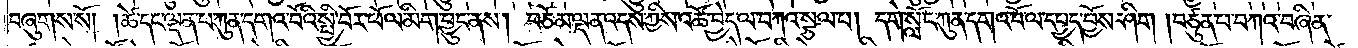བཞུགས་སོ། །ཚེ་དང་ལྡན་པ་ཀུན་དགའ་བོའི་སྤྱི་བོར་ཕོལ་མིག་བྱུང་ནས། བཅོམ་ལྡན་འདས་ཀྱིས་འཚོ་བྱེད་ལ་བཀའ་སྩལ་པ། དགེ་སློང་ཀུན་དགའ་བོ་ལ་དཔྱད་བྱོས་ཤིག །བཙུན་པ་བཀའ་བཞིན་
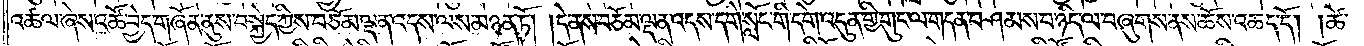འཚལ་ཞེས་འཚོ་བྱེད་གཞོན་ནུས་བསྐྱེད་ཀྱིས་བཅོམ་ལྡན་འདས་ལས་མཉན་ཏོ། །དེ་ནས་བཅོམ་ལྡན་འདས་དགེ་སློང་གི་དགེ་འདུན་གྱི་གུང་ལ་གདན་བཤམས་པ་ཉིད་ལ་བཞུགས་ནས་ཆོས་འཆད་དོ། །ཚེ་
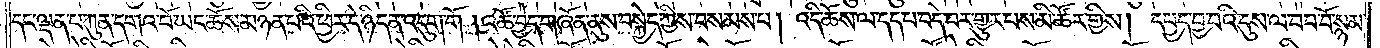དང་ལྡན་པ་ཀུན་དགའ་བོ་ཡང་ཆོས་མཉན་པའི་ཕྱིར་དེ་ཉིད་ན་འདུག་གོ །འཚོ་བྱེད་གཞོན་ནུས་བསྐྱེད་ཀྱིས་བསམས་པ། འདི་ཆོས་ལ་དད་པ་བདེ་བར་གྱུར་པས་མི་ཚོར་གྱིས། དཔྱད་བྱ་བའི་དུས་ལ་བབ་བོ་སྙམ་
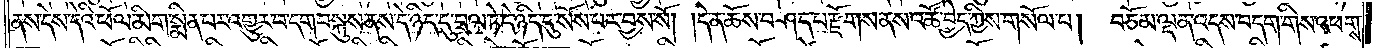ནས་དེས་དེའི་ཕོལ་མིག་སྨིན་པར་འགྱུར་བ་དག་བསྐུས་ནས་དེ་ཉིད་དུ་བྲལ་ཏེ་དེ་ཉིད་དུ་སོས་བར་བྱས་སོ། །དེ་ན་ཆོས་བཤད་པ་རྫོགས་ནས་འཚོ་བྱེད་ཀྱིས་གསོལ་པ། བཅོམ་ལྡན་འདས་བདག་གིས་འཕགས་
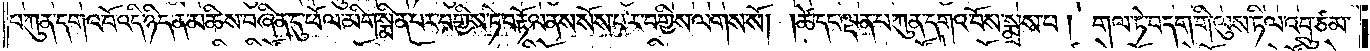པ་ཀུན་དགའ་བོ་འདི་ཉིད་ན་མཆིས་བཞིན་དུ་ཕོལ་མིག་སྨིན་པར་བགྱིས་ཏེ་བརྟོལ་ནས་སོས་པར་བགྱིས་ལགས་སོ། །ཚེ་དང་ལྡན་པ་ཀུན་དགའ་བོས་སྨྲས་པ། གལ་ཏེ་བདག་གི་ལུས་ཏིལ་འབྲུ་ཙམ་
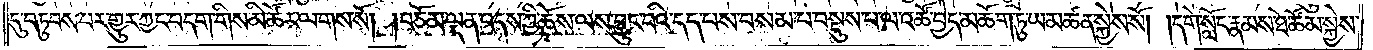དུ་བཏུབས་པར་གྱུར་ཀྱང་བདག་གིས་མི་ཚོར་ལགས་སོ། །བཅོམ་ལྡན་འདས་ཀྱི་ཆོས་ལས་བྱུང་བའི་དད་པས་བསམ་པ་བསྡུས་པ་ལ་འཚོ་བྱེད་མཆོག་ཏུ་ཡ་མཚན་སྐྱེས་སོ། །དགེ་སློང་རྣམས་ཐེ་ཚོམ་སྐྱེས་
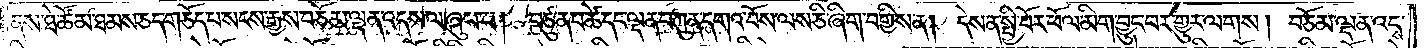ནས་ཐེ་ཚོམ་ཐམས་ཅད་གཅོད་པས་སངས་རྒྱས་བཅོམ་ལྡན་འདས་ལ་ཞུས་པ། བཙུན་པ་ཚེ་དང་ལྡན་པ་ཀུན་དགའ་བོས་ལས་ཅི་ཞིག་བགྱིས་ན། དེས་ན་སྤྱི་བོར་ཕོལ་མིག་བྱུང་བར་གྱུར་ལགས། བཅོམ་ལྡན་འདས་
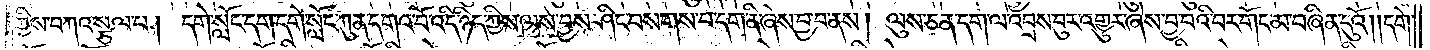ཀྱིས་བཀའ་སྩལ་པ། དགེ་སློང་དག་དགེ་སློང་ཀུན་དགའ་བོ་འདི་ཉིད་ཀྱིས་ལས་བྱས་ཤིང་བསགས་པ་དག་ནི་ཞེས་བྱ་བ་ནས། ལུས་ཅན་དག་ལ་འབྲས་བུར་འགྱུར་ཞེས་བྱ་བའི་བར་གོང་མ་བཞིན་དུའོ། །དགེ་
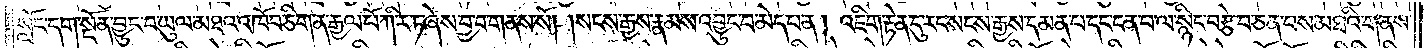སློང་དག་སྔོན་བྱུང་བ་ཡུལ་མཐའ་འཁོབ་ཅིག་ན་རྒྱལ་པོ་ཀི་ར་ཏ་ཞེས་བྱ་བ་གནས་སོ། །སངས་རྒྱས་རྣམས་འབྱུང་བ་མེད་པ་ན། འཇིག་རྟེན་དུ་རང་སངས་རྒྱས་དམན་པ་དང་ངན་པ་ལ་སྙིང་བརྩེ་བ་ཅན་པས་མཐའི་གནས་
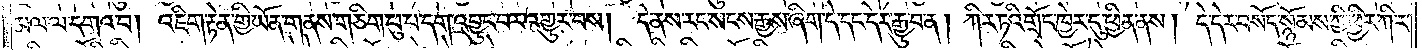མལ་ལ་དགའ་བ། འཇིག་རྟེན་གྱི་ཡོན་གནས་གཅིག་པུ་པ་དག་འབྱུང་བར་འགྱུར་བས། དེ་ནས་རང་སངས་རྒྱས་ཞིག་དེ་དང་དེར་རྒྱུ་བ་ན། ཀི་ར་ཏའི་གྲོང་ཁྱེར་དུ་ཕྱིན་ནས། དེ་དེར་བསོད་སྙོམས་ཀྱིས་ཕྱིར་ཀི་ར་
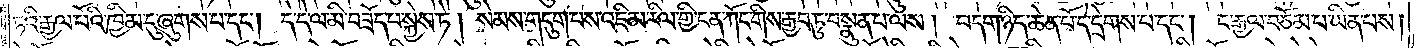ཏའི་རྒྱལ་པོའི་ཁྱིམ་དུ་ཞུགས་པ་དང༌། དེ་དེ་ལ་མི་བཟོད་པ་སྐྱེས་ཏེ། སེམས་གདུག་པས་འཇིམ་རིལ་གྱི་ངན་ཀོང་གིས་རྒྱབ་ཏུ་བསྣུན་པ་ལས། བདག་ཉིད་ཆེན་པོ་དེ་དྲེགས་པ་དང༌། ང་རྒྱལ་བཅོམ་པ་ཡིན་པས།
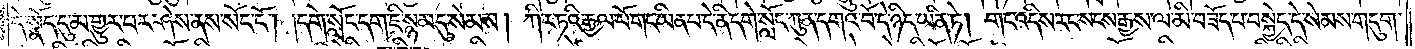དེ་སྣོད་དུ་མ་གྱུར་པར་ཤེས་ནས་སོང་ངོ༌། །དགེ་སློང་དག་ཇི་སྙམ་དུ་སེམས། ཀི་ར་ཏའི་རྒྱལ་པོ་གང་ཡིན་པ་དེ་ནི་དགེ་སློང་ཀུན་དགའ་བོ་དེ་ཉིད་ཡིན་ཏེ། གང་འདིར་རང་སངས་རྒྱས་ལ་མི་བཟོད་པ་བསྐྱེད་དེ་སེམས་གདུག་
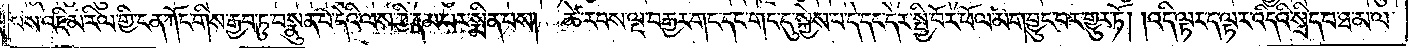པས་འཇིམ་རིལ་གྱི་ངན་ཀོང་གིས་རྒྱབ་ཏུ་བསྣུན་པ་དེའི་ལས་ཀྱི་རྣམ་པར་སྨིན་པས། ཚེ་རབས་ལྔ་བརྒྱར་གང་དང་གང་དུ་སྐྱེ་བ་དེ་དང་དེར་སྤྱི་བོར་ཕོལ་མིག་བྱུང་བར་གྱུར་ཏོ། །འདི་ལྟར་ད་ལྟར་འདིའི་སྲིད་པ་ཐ་མ་ལ་
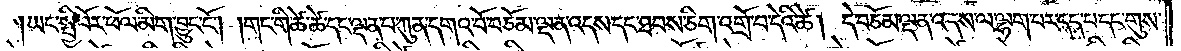ཡང་སྤྱི་བོར་ཕོལ་མིག་བྱུང་ངོ༌། །གང་གི་ཚེ་ཚེ་དང་ལྡན་པ་ཀུན་དགའ་བོ་བཅོམ་ལྡན་འདས་དང་ཐབས་ཅིག་འགྲོ་བ་དེའི་ཚེ། དེ་བཅོམ་ལྡན་འདས་ལ་ལྷག་པར་དད་པ་དང་གུས་
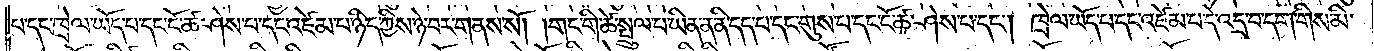པ་དང་ཁྲེལ་ཡོད་པ་དང་ངོ་ཚ་ཤེས་པ་དང་འཛེམ་པ་ཉིད་ཀྱིས་ཉེ་བར་གནས་སོ། །གང་གི་ཚེ་སྤྲུལ་པ་ཡིན་ན་ནི་དད་པ་དང་གུས་པ་དང་ངོ་ཚ་ཤེས་པ་དང༌། ཁྲེལ་ཡོད་པ་དང་འཛེམ་པ་དེ་འདྲ་བ་དག་གིས་མི་
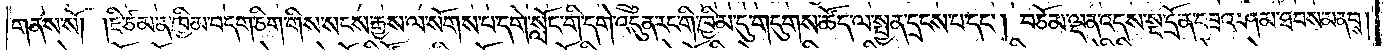གནས་སོ། །ཇི་ཙམ་ན་ཁྱིམ་བདག་ཅིག་གིས་སངས་རྒྱས་ལ་སོགས་པ་དགེ་སློང་གི་དགེ་འདུན་རང་གི་ཁྱིམ་དུ་གདུགས་ཚོད་ལ་སྤྱན་དྲངས་པ་དང༌། བཅོམ་ལྡན་འདས་སྔ་དྲོ་ན་བཟའ་ཤམ་ཐབས་མནབས།
